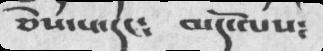ཅེས་པ་དང༴   མདོ་ལས༴
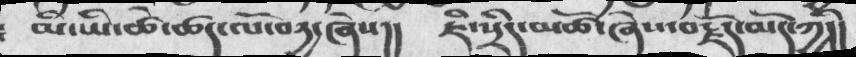མི་ཡི་ཚེ་ཚད་ལོ་བདྱ་ཞེས།།   ཇི་སྲིད་མཚོ་ཞེས་བརྗོད་མོད་ཀྱི།།
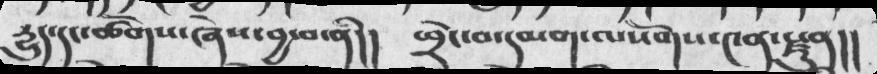དྱུད་དང་ཚོགས་ཞེས་བྱ་བ་ནི།།    ཕྲེང་བ་དམག་ལ་སོགས་༤ན་སྫུན།།
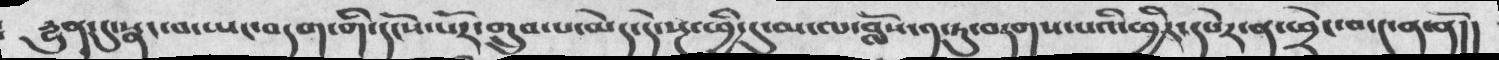དྱུན་དུ་སྣང་བ་ཡང་བདག་གི་དངོས་པོར་གྲུབ་པ་མེད་དེ་སྔ་ཕྱི་དུ་མ་ལ་བློས་༡་ཏུ་བཏགས་པའི་ཕྱིར་དཔེར་ན་ཕྲེང་བ་༤ན་ནོ།།
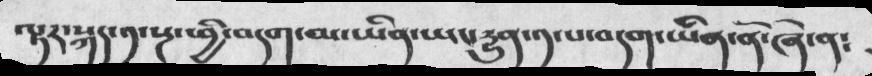ལྟར་སྐད་༡་སྔ་ཕྱི་བདག་མ་ཡིན་ཡང་དྱུན་༡་པ་བདག་ཡིན་ནོ་ཞེ་ན༴
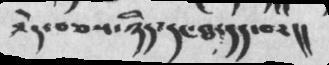ཤེར་བརྩས་ཉིད་དང་ཐ་དད་བར།།
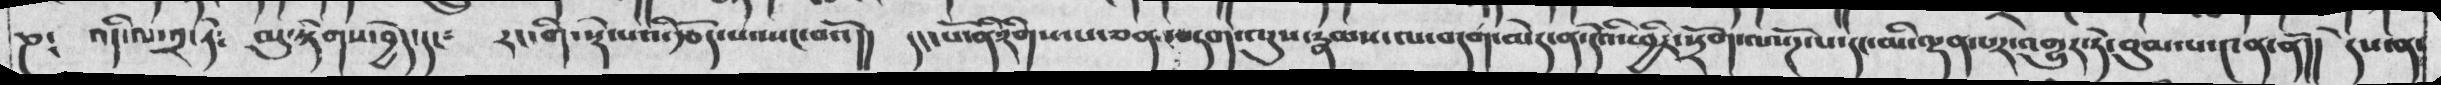ཎ༴   འདི་ལ་༢་ཏེ༴   མུ་སྟེགས་བྱེད་དང༴    རང་གི་སྡེ་པའི་རྩོད་པ་སྤང་བའོ།།   དང་པོ་ནི་རིགས་པ་ཅན་བདག་ལུས་རྣམས་ལ་བདག་མེད་ན་དེའི་ཕྱིར་སྲོག་ལ་སོཌ་པ་དང་མི་ལྡན་པར་འགྱུར་ཏེ་བུམ་པ་༤ན་ནོ།།   དེས་ན་་
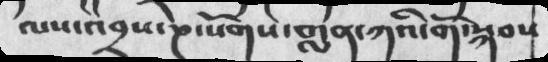ལས་འབྲས་ཎ་སོགས་གླན་ཀའི་གོ་སྐབས
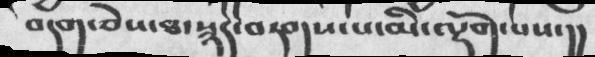བདག་ཅེས་ཐ་སྙད་བཏགས་པ་མི་ལྟོག་པས་།།
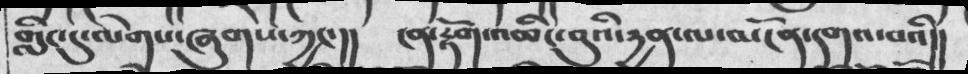གླིང་དུ་ལེགས་ཞུགས་ཀྱང་།།  ངན་རྟོག་འཆིང་བུའི་དྱན་ལ་མངོན་དག་བའི།།
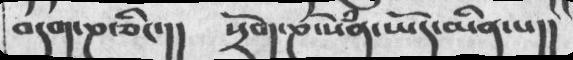བདག་ཎ་ཅིང་།།  སྲོག་ཎ་སེཾན་ཡོད་མིན་པ།།
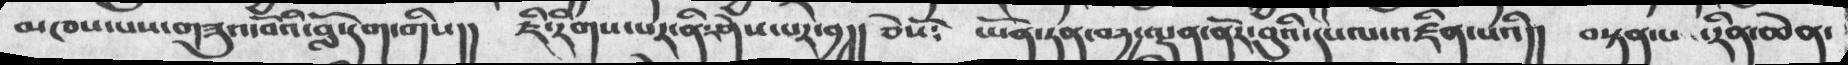མཁས་པས་གཟུའ་བོའི་བློ་དག་གིས།།  ཇི་རིགས་པར་ནི་ཤེས་པར་བྱ།།  ཅེསོ༴  ཡོན་ཏན་བདྱ་ལྡན་ནོར་བུའི་དཔལ་འརྫིན་པའི།།  བསྟན་པ ་རིན་ཆེན་
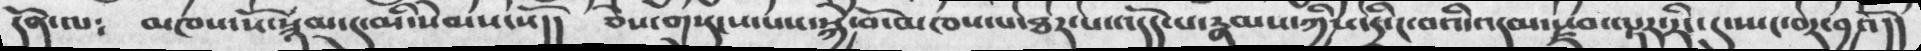དོན་ལ༴  མཁས་སོ་སྙམ་དུ་མི་སེམས་སོ།།  ཅེས་གསུང་ས་སས་སྐྱེ་བོ་མཁས་པ་ཐར་འདོད་པ་རྣམས་ཀྱིས་དྲི་ང་བའི་འདམ་རྫབ་ལྟར་རི་དུ་སྤང་བར་བྱའོ།།
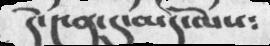དེ་༤ན་དུ་མདོ་ལས༴
